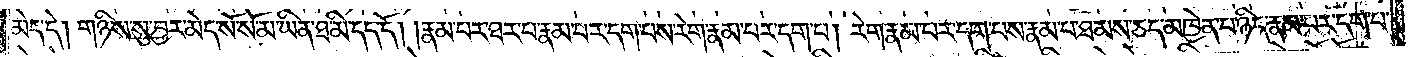མེད་དེ། གཉིས་སུ་བྱར་མེད་སོ་སོ་མ་ཡིན་ཐ་མི་དད་དོ། །རྣམ་པར་ཐར་པ་རྣམ་པར་དག་པས་རེག་རྣམ་པར་དག་པ། རེག་རྣམ་པར་དག་པས་རྣམ་པ་ཐམས་ཅད་མཁྱེན་པ་ཉིད་རྣམ་པར་དག་པ་
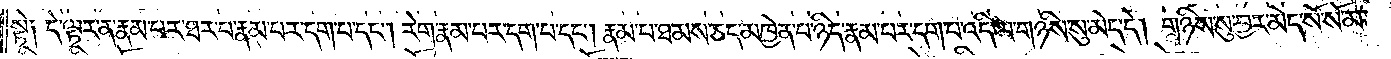སྟེ༑ དེ་ལྟར་ན་རྣམ་པར་ཐར་པ་རྣམ་པར་དག་པ་དང༌། རེག་རྣམ་པར་དག་པ་དང༌། རྣམ་པ་ཐམས་ཅད་མཁྱེན་པ་ཉིད་རྣམ་པར་དག་པ་འདི་ལ་གཉིས་སུ་མེད་དེ། གཉིས་སུ་བྱར་མེད་སོ་སོ་མ་
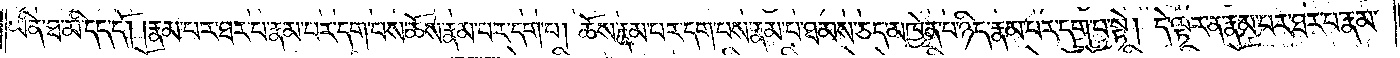ཡིན་ཐ་མི་དད་དོ། །རྣམ་པར་ཐར་པ་རྣམ་པར་དག་པས་ཆོས་རྣམ་པར་དག་པ། ཆོས་རྣམ་པར་དག་པས་རྣམ་པར་ཐམས་ཅད་མཁྱེན་པ་ཉིད་རྣམ་པར་དག་པ་སྟེ། དེ་ལྟར་ན་རྣམ་པར་ཐར་པ་རྣམ་
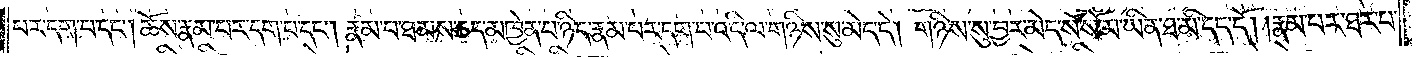པར་དག་པ་དང༌། ཆོས་རྣམ་པར་དག་པ་དང༌། རྣམ་པ་ཐམས་ཅད་མཁྱེན་པ་ཉིད་རྣམ་པར་དག་པ་འདི་ལ་གཉིས་སུ་མེད་དེ། གཉིས་སུ་བྱར་མེད་སོ་སོ་མ་ཡིན་ཐ་མི་དད་དོ། །རྣམ་པར་ཐར་པ་
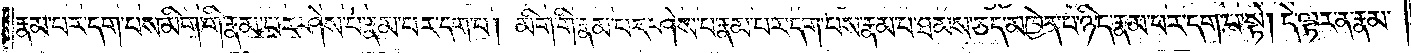རྣམ་པར་དག་པས་མིག་གི་རྣམ་པར་ཤེས་པ་རྣམ་པར་དག་པ། མིག་གི་རྣམ་པར་ཤེས་པ་རྣམ་པར་དག་པས་རྣམ་པ་ཐམས་ཅད་མཁྱེན་པ་ཉིད་རྣམ་པར་དག་པ་སྟེ། དེ་ལྟར་ན་རྣམ་
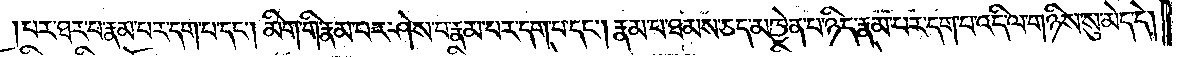པར་ཐར་པ་རྣམ་པར་དག་པ་དང༌། མིག་གི་རྣམ་པར་ཤེས་པ་རྣམ་པར་དག་པ་དང༌། རྣམ་པ་ཐམས་ཅད་མཁྱེན་པ་ཉིད་རྣམ་པར་དག་པ་འདི་ལ་གཉིས་སུ་མེད་དེ།
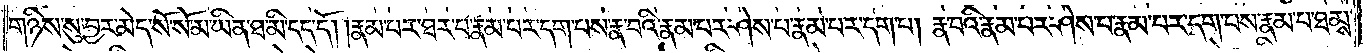གཉིས་སུ་བྱར་མེད་སོ་སོ་མ་ཡིན་ཐ་མི་དད་དོ། །རྣམ་པར་ཐར་པ་རྣམ་པར་དག་པས་རྣ་བའི་རྣམ་པར་ཤེས་པ་རྣམ་པར་དག་པ། རྣ་བའི་རྣམ་པར་ཤེས་པ་རྣམ་པར་དག་པས་རྣམ་པ་ཐམས་
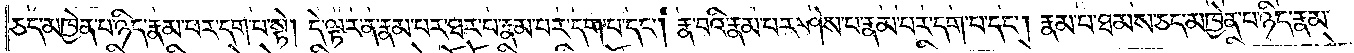ཅད་མཁྱེན་པ་ཉིད་རྣམ་པར་དག་པ་སྟེ། དེ་ལྟར་ན་རྣམ་པར་ཐར་པ་རྣམ་པར་དག་པ་དང༌། རྣ་བའི་རྣམ་པར་ཤེས་པ་རྣམ་པར་དག་པ་དང༌། རྣམ་པ་ཐམས་ཅད་མཁྱེན་པ་ཉིད་རྣམ་
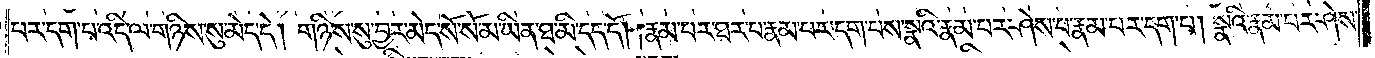པར་དག་པ་འདི་ལ་གཉིས་སུ་མེད་དེ། གཉིས་སུ་བྱར་མེད་སོ་སོ་མ་ཡིན་ཐ་མི་དད་དོ། །རྣམ་པར་ཐར་པ་རྣམ་པར་དག་པས་སྣའི་རྣམ་པར་ཤེས་པ་རྣམ་པར་དག་པ། སྣའི་རྣམ་པར་ཤེས་
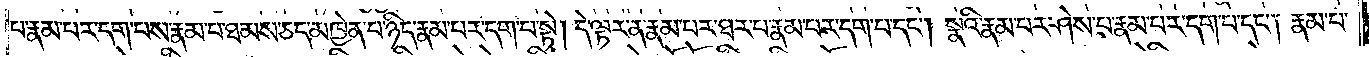པ་རྣམ་པར་དག་པས་རྣམ་པ་ཐམས་ཅད་མཁྱེན་པ་ཉིད་རྣམ་པར་དག་པ་སྟེ། དེ་ལྟར་ན་རྣམ་པར་ཐར་པ་རྣམ་པར་དག་པ་དང༌། སྣའི་རྣམ་པར་ཤེས་པ་རྣམ་པར་དག་པ་དང༌། རྣམ་པ་
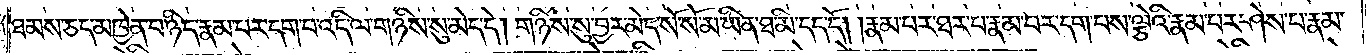ཐམས་ཅད་མཁྱེན་པ་ཉིད་རྣམ་པར་དག་པ་འདི་ལ་གཉིས་སུ་མེད་དེ། གཉིས་སུ་བྱར་མེད་སོ་སོ་མ་ཡིན་ཐ་མི་དད་དོ། །རྣམ་པར་ཐར་པ་རྣམ་པར་དག་པས་ལྕེའི་རྣམ་པར་ཤེས་པ་རྣམ་
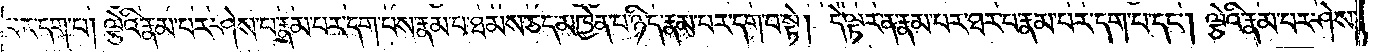པར་དག་པ། ལྕེའི་རྣམ་པར་ཤེས་པ་རྣམ་པར་དག་པ་རྣམ་པ་ཐམས་ཅད་མཁྱེན་པ་ཉིད་རྣམ་པར་དག་པ་སྟེ། དེ་ལྟར་ན་རྣམ་པར་ཐར་པ་རྣམ་པར་དག་པ་དང༌། ལྕེའི་རྣམ་པར་ཤེས་
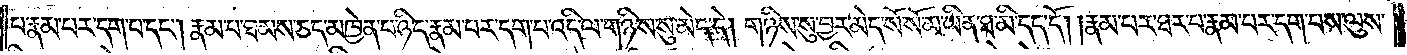པ་རྣམ་པར་དག་པ་དང༌། རྣམ་པ་ཐམས་ཅད་མཁྱེན་པ་ཉིད་རྣམ་པར་དག་པ་འདི་ལ་གཉིས་སུ་མེད་དེ། གཉིས་སུ་བྱར་མེད་སོ་སོ་མ་ཡིན་ཐ་མི་དད་དོ། །རྣམ་པར་ཐར་པ་རྣམ་པར་དག་པས་ལུས་
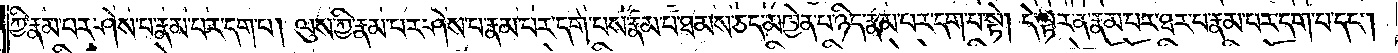ཀྱི་རྣམ་པར་ཤེས་པ་རྣམ་པར་དག་པ། ལུས་ཀྱི་རྣམ་པར་ཤེས་པ་རྣམ་པར་དག་པས་རྣམ་པ་ཐམས་ཅད་མཁྱེན་པ་ཉིད་རྣམ་པར་དག་པ་སྟེ། དེ་ལྟར་ན་རྣམ་པར་ཐར་པ་རྣམ་པར་དག་པ་དང༌།
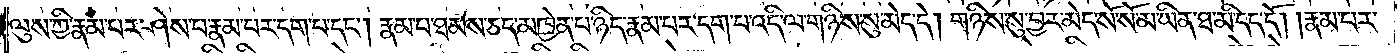ལུས་ཀྱི་རྣམ་པར་ཤེས་པ་རྣམ་པར་དག་པ་དང༌། རྣམ་པ་ཐམས་ཅད་མཁྱེན་པ་ཉིད་རྣམ་པར་དག་པ་འདི་ལ་གཉིས་སུ་མེད་དེ། གཉིས་སུ་བྱར་མེད་སོ་སོ་མ་ཡིན་ཐ་མི་དད་དོ། །རྣམ་པར་
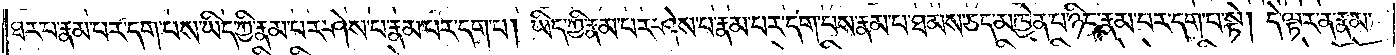ཐར་པ་རྣམ་པར་དག་པས་ཡིད་ཀྱི་རྣམ་པར་ཤེས་པ་རྣམ་པར་དག་པ། ཡིད་ཀྱི་རྣམ་པར་ཤེས་པ་རྣམ་པར་དག་པས་རྣམ་པ་ཐམས་ཅད་མཁྱེན་པ་ཉིད་རྣམ་པར་དག་པ་སྟེ། དེ་ལྟར་ན་རྣམ་
